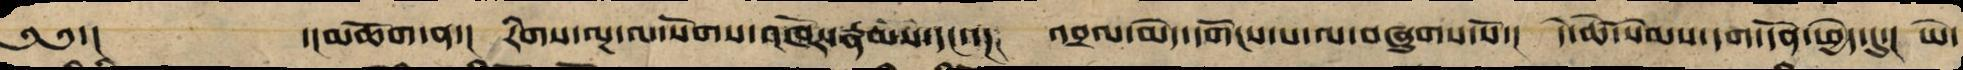༄༅་།  ་།མཆོག་ན་། རིགས་ལྔ་ལ་སོགས་འཁོར་རྣམས་དང་་། འབྲལ་མེད་དགོངས་པ་ལ་བཞུགས་སོ་། དེ་ཚེ་སེམས་དག་དོན་ཆེད་དུ་། ཡེ་
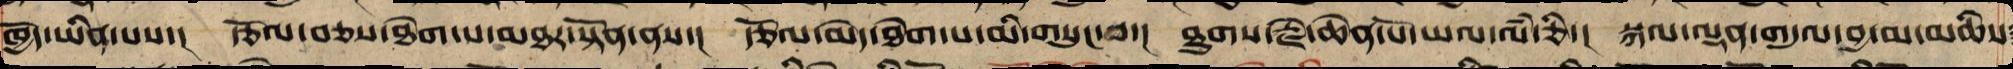ཁྱོད་ཡིན་པས་། རྩོལ་བཅས་ཐེག་པ་མཐར་སྟོན་ན་། རྩོལ་མེད་ཐེག་པ་མི་གསུང་བ་། ཐུགས་རྗེ་ཆེན་པོ་ཡལ་ལཾ་ཅི་། སྐལ་ལྡན་གདུལ་བྱ་མ་མཆིས
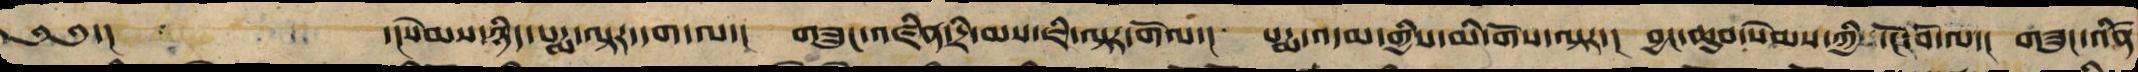༄༄་།      ་།སེམས་ཉིད་པདྨ་ལྟར་དག་ལ་།  གཟུང་འཛིན་དྲི་མས་ཇི་ལྟར་གོལ་།  པདྨ་འདམ་གྱིས་མི་གོས་ལྟར་།  བྱང་ཆུབ་སེམས་ཀྱི་ངོ་བོ་ལ་།  གཟུང་འཛིན་
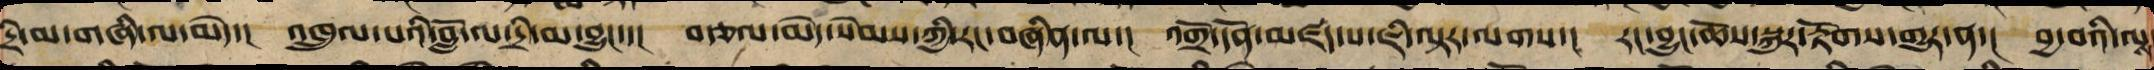དྲི་མ་གཞི་ལ་མེད་།  འཁྲུལ་པའི་བློ་ལ་དྲི་མ་བྱུང་་།  བརྩལ་མེད་སེམས་ཀྱི་རང་བཞིན་ལ་།  འགྲོ་དོན་མཛད་པ་ཇི་ལྟར་ལགས་།  རང་བྱུང་ཆོས་སྐུར་རྟོགས་གྱུར་ན་།  བྱ་བའི་ལྷ
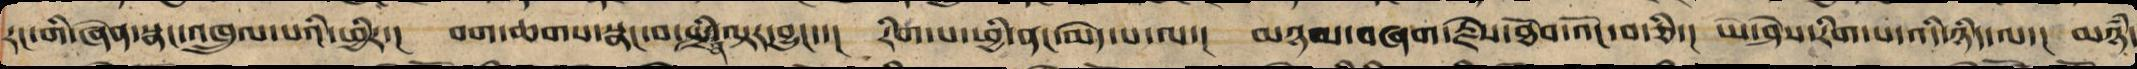རང་གི་ཞེན་སྣང་འཁྲུལ་པའི་ཕྱིར་། བག་ཆགས་སྣང་བ་སྤྲིན་ལྟར་བྱུང་་། རིག་པ་ཕྱི་ནང་མེད་པ་ལ་། མཉམ་གཞག་རྗེས་ཐོབ་འོང་བ་ཅི་། ཡེ་ཤེས་རིག་པ་འདི་ཉིད་ལ་། མཉཾ་
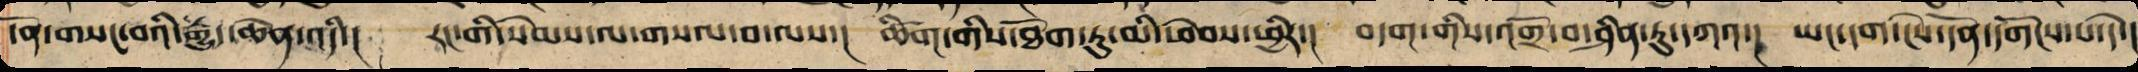དོན་གསང་བའི་རྒྱུད་ཆེན་འདི་། རང་གི་སེམས་ལ་གསལ་བ་ལས་། ཚིག་གི་ཐོག་ཏུ་མི་ཕེབས་ཕྱིར་། བདག་གིས་བགྲོ་བ་ཤིན་ཏུ་དཀའ་། ཡང་དག་ངེས་དོན་དགོངས་པ་དེ་།
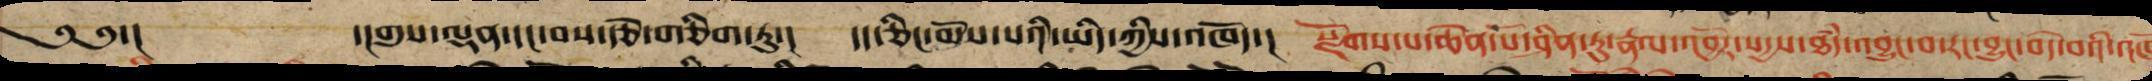༄༅་། ་།གུས་ལྡན་དང་བས་རྩེ་གཅིག་ཏུ་། དད་ཅིང་མོས་པའི་ཡིད་ཀྱིས་འཁོད་། སྫོགས་པ་ཆེན་པོ་ཤིན་ཏུ་རྣལ་འབྱོར་སདྱས་ཐཾད་འབྱུང་བ་རང་བྱུང་བདེ་བའི་འཁོ
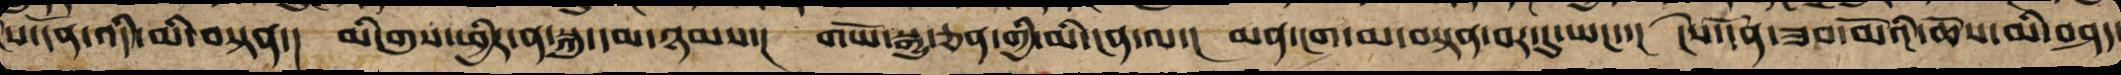ངེས་དོན་འདི་མི་བསྟན་། མི་གུས་ཕྱིར་ན་སྐུ་དམ་ཉམས་། གཡོ་སྒྱུ་ཅན་གྱི་མི་ངན་ལ་། མན་ངག་མ་བསྟན་བར་དུ་ཡང་་། ངེས་དོན་ཟབ་མོའི་ཆོས་མི་བཤད་
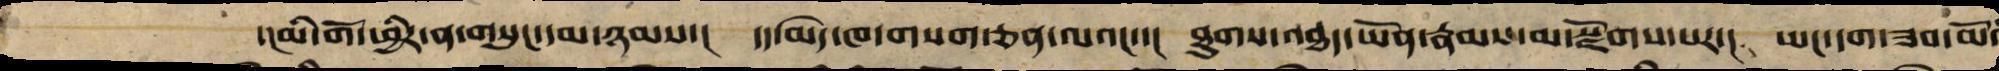་།མི་གོ་ཕྱིར་ན་གསུང་དམ་ཉམས་། དད་མེད་ཁ་གསག་ཅན་ལའང་་། ཐུགས་འཐད་ཡོད་རྣམས་མ་སྫོགས་པར་། ཡང་དག་ཟབ་མོ་
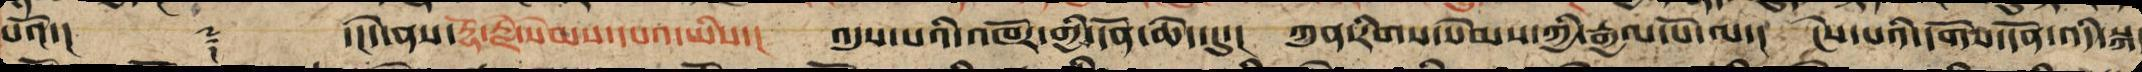པའོ་།། ༈ ་།།དེ་ནས་རྡོ་རྗེ་སེམས་དཔའ་ཡིས་། འདུས་པའི་འཁོར་གྱི་དོན་ཆེད་དུ་། ཀུན་རིག་སེམས་ཀྱི་རྒྱལ་པོ་ལ་། ངེས་པའི་དགོས་དོན་འདི་སྐད
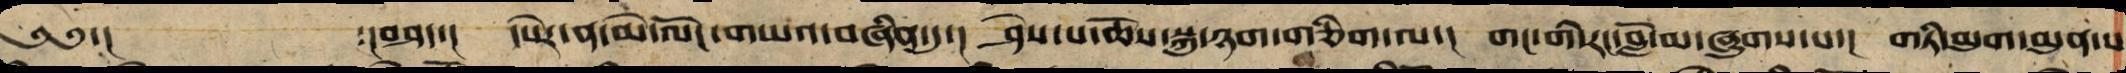༄༄་།       ་།བཤད་།  དཔེར་ན་མེ་ལོང་གཡའ་བཞིན་དུ་།  ཤེས་པ་ཆོས་སྐུ་ཉག་གཅིག་ལ་།  གང་གི་རང་བློ་མ་ཞུགས་པ་།  གཏི་མུག་མུན་པ
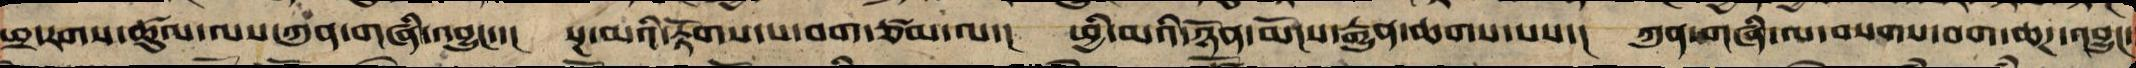ཕྲ་རགས་ཚུལ་ལས་ཀུན་གཞི་འབྱུང་་།  སྔ་མའི་རྟོགས་པ་བག་ཙམ་ལ་།  ཕྱི་མའི་ཉོན་མོངས་རྒྱུན་ཆགས་པས་།  ཀུན་གཞི་ལ་བསགས་བག་ཆཌ་འབྱུང་
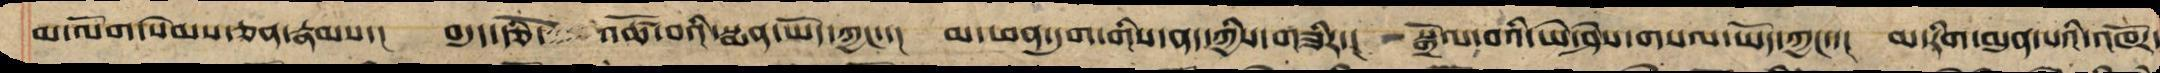མ་ལོག་སེམས་ཅན་རྣམས་།  བདུད་རྩི་ འཚོ་བའི་སྨན་ཡོད་ཀྱང་་།  མ་ཕན་དུག་གིས་ནད་ཀྱིས་གཟིར་།  སྒྲོལ་བའི་ཡེ་ཤེས་གསལ་ཡོད་ཀྱང་་།  མ་རིག་མུན་པའི་འཁོར་
